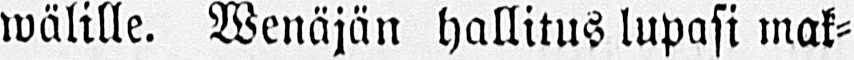wälille. Wenäjän hallitus lupasi mak-
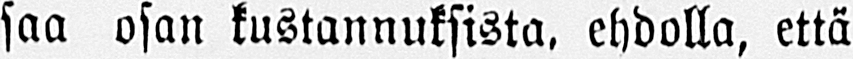saa osan kustannuksista, ehdolla, että
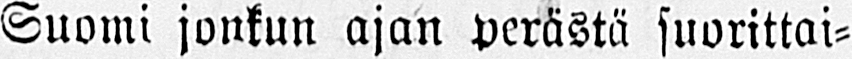Suomi jonkun ajan perästä suorittai-
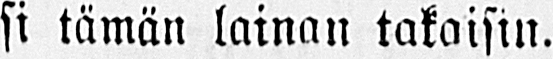si tämän lainan takaisin.
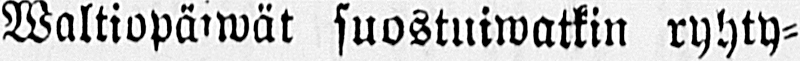Waltiopäiwät suostuiwatkin ryhty-
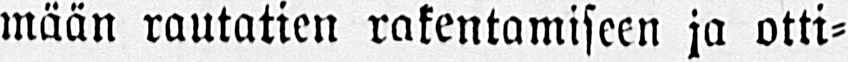mään rautatien rakentamiseen ja otti-
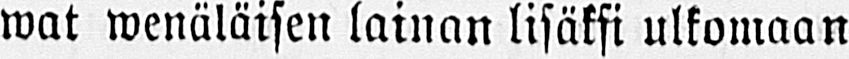wat wenäläisen lainan lisäksi ulkomaan
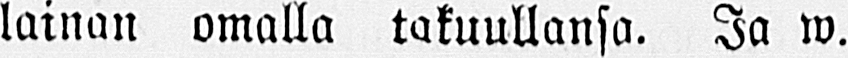lainan omalla takuullansa. Ja w.
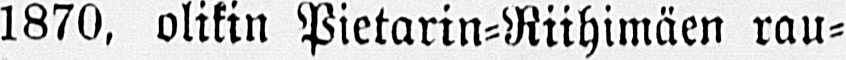1870, olikin Pietarin-Riihimäen rau-
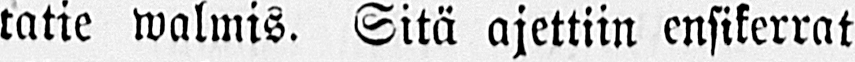tatie walmis. Sitä ajettiin ensikerrat
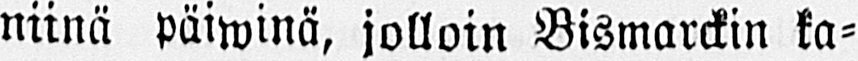niinä päiwinä, jolloin Bismarckin ka-
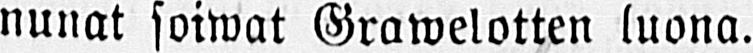nunat soiwat Grawelotten luona.
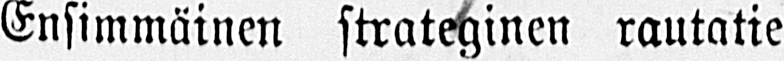Ensimmäinen strateginen rautatie
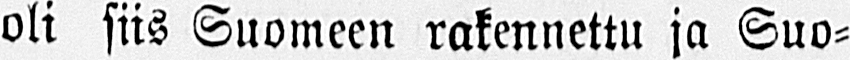oli siis Suomeen rakennettu ja Suo-
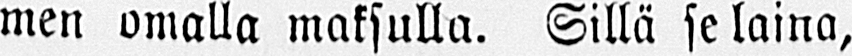men omalla maksulla. Sillä se laina,
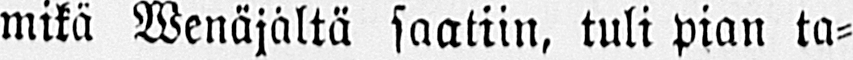mikä Wenäjältä saaliin, tuli pian ta-
